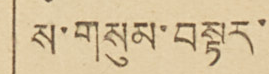ས་གསུམ་བསྟར་
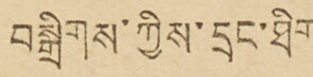བསྒྲིགས་ཀྱིས་དྲང་ཐིག་
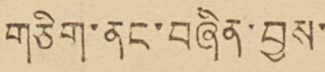གཅིག་ནང་བཞིན་བྱས་
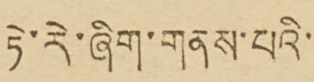ཏེ་རེ་ཞིག་གནས་པའི་་
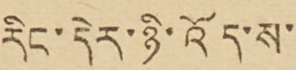རིང་དེར་ཉི་འོད་ས་་་
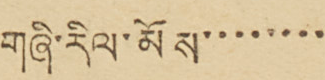གཞི་རིལ་མོས་་་་་་་་
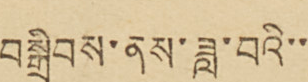བསྒྲིབས་ནས་ཟླ་བའི་་་
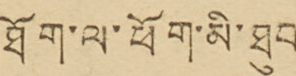ཐོག་ལ་ཕོག་མི་ཐུབ་་
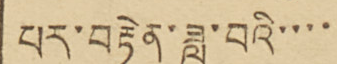པར་བརྟེན་ཟླ་བའི་་་་་
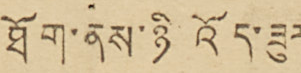ཐོག་ནས་ཉི འོད་ཟུར་
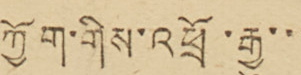ཀྱོག་གིས་འཕྲོ་རྒྱུ་་་་
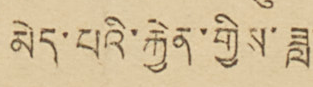མེད་པའི་རྐྱེན་གྱིས་ཟླ་་
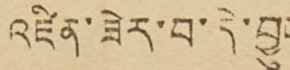འཛིན་ཟེར་བ་དེ་བྱུང་་
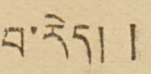བ་རེད། །
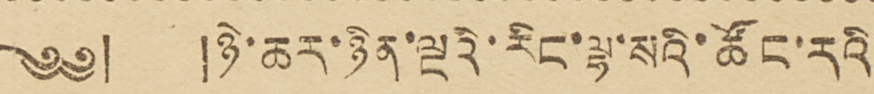༄༅། །ཉེ་ཆར་ཉིན་ལྔའི་རིང་ལྷ་སའི་ཚོང་རའི་
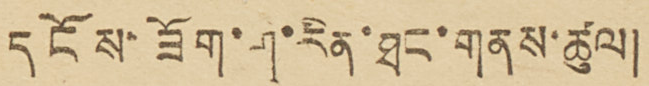དངོས་ཟོག་གི་རིན་ཐང་གནས་ཚུལ།
